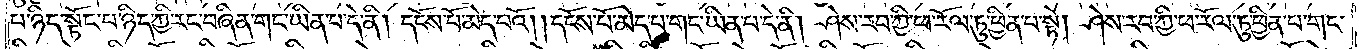པ་ཉིད་སྟོང་པ་ཉིད་ཀྱི་རང་བཞིན་གང་ཡིན་པ་དེ་ནི། དངོས་པོ་མེད་པའོ། དངོས་པོ་མེད་པ་གང་ཡིན་པ་དེ་ནི། ཤེས་རབ་ཀྱི་ཕ་རོལ་ཏུ་ཕྱིན་པ་སྟེ། ཤེས་རབ་ཀྱི་ཕ་རོལ་ཏུ་ཕྱིན་པ་གང་
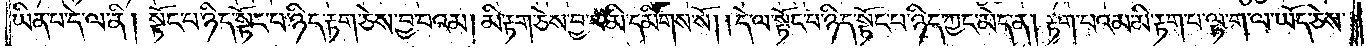ཡིན་པ་དེ་ལ་ནི། སྟོང་པ་ཉིད་སྟོང་པ་ཉིད་རྟག་ཅེས་བྱ་བའམ། མི་རྟག་ཅེས་བྱ་བ་མི་དམིགས་སོ། །དེ་ལ་སྟོང་པ་ཉིད་སྟོང་པ་ཉིད་ཀྱང་མེད་ན། རྟག་པའམ་མི་རྟག་པ་ལྟ་ག་ལ་ཡོད་ཅེས་
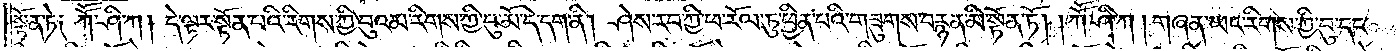སྟོན་ཏེ༑ ཀཽ་ཤི་ཀ། དེ་ལྟར་སྟོན་པའི་རིགས་ཀྱི་བུའམ་རིགས་ཀྱི་བུ་མོ་དེ་དག་ནི། ཤེས་རབ་ཀྱི་ཕ་རོལ་ཏུ་ཕྱིན་པའི་གཟུགས་བརྙན་མི་སྟོན་ཏོ། །ཀཽ་ཤི་ཀ། གཞན་ཡང་རིགས་ཀྱི་བུ་དང་
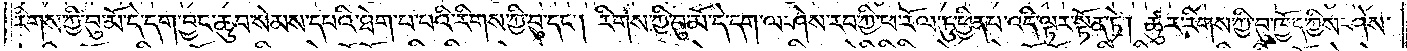རིགས་ཀྱི་བུ་མོ་དེ་དག་བྱང་ཆུབ་སེམས་དཔའི་ཐེག་པ་པའི་རིགས་ཀྱི་བུ་དང༌། རིགས་ཀྱི་བུ་མོ་དེ་དག་ལ་ཤེས་རབ་ཀྱི་ཕ་རོལ་ཏུ་ཕྱིན་པ་འདི་ལྟར་སྟོན་ཏེ། ཚུར་རིགས་ཀྱི་བུ་ཁྱོད་ཀྱིས་ཤེས་
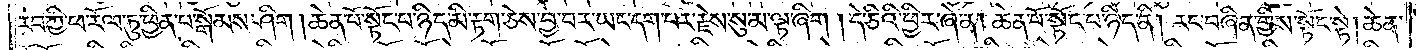རབ་ཀྱི་ཕ་རོལ་ཏུ་ཕྱིན་པ་སྒོམས་ཤིག །ཆེན་པོ་སྟོང་པ་ཉིད་མི་རྟག་ཅེས་བྱ་བར་ཡང་དག་པར་རྗེས་སུ་མ་ལྟ་ཞིག །དེ་ཅིའི་ཕྱིར་ཞེ་ན། ཆེན་པོ་སྟོང་པ་ཉིད་ནི། རང་བཞིན་གྱིས་སྟོང་སྟེ། ཆེན་
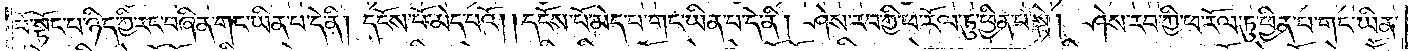པོ་སྟོང་པ་ཉིད་ཀྱི་རང་བཞིན་གང་ཡིན་པ་དེ་ནི། དངོས་པོ་མེད་པའོ། །དངོས་པོ་མེད་པ་གང་ཡིན་པ་དེ་ནི། ཤེས་རབ་ཀྱི་ཕ་རོལ་ཏུ་ཕྱིན་པ་སྟེ། ཤེས་རབ་ཀྱི་ཕ་རོལ་ཏུ་ཕྱིན་པ་གང་ཡིན་
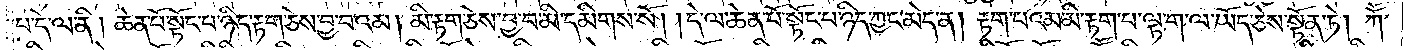པ་དེ་ལ་ནི། ཆེན་པོ་སྟོང་པ་ཉིད་རྟག་ཅེས་བྱ་བའམ། མི་རྟག་ཅེས་བྱ་བ་མི་དམིགས་སོ། །དེ་ལ་ཆེན་པོ་སྟོང་པ་ཉིད་ཀྱང་མེད་ན། རྟག་བའམ་མི་རྟག་པ་ལྟ་ག་ལ་ཡོད་ཅེས་སྟོན་ཏེ། ཀཽ་
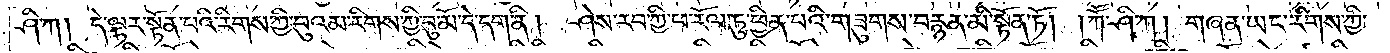ཤི་ཀ། དེ་ལྟར་སྟོན་པའི་རིགས་ཀྱི་བུའམ་རིགས་ཀྱི་བུ་མོ་དེ་དག་ནི། ཤེས་རབ་ཀྱི་ཕ་རོལ་ཏུ་ཕྱིན་པའི་གཟུགས་བརྙན་མི་སྟོན་ཏོ། །ཀཽ་ཤི་ཀ། གཞན་ཡང་རིགས་ཀྱི་
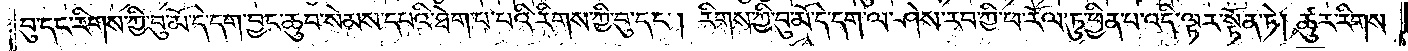བུ་དང་རིགས་ཀྱི་བུ་མོ་དེ་དག་བྱང་ཆུབ་སེམས་དཔའི་ཐེག་པ་པའི་རིགས་ཀྱི་བུ་དང༌། རིགས་ཀྱི་བུ་མོ་དེ་དག་ལ་ཤེས་རབ་ཀྱི་ཕ་རོལ་ཏུ་ཕྱིན་པ་འདི་ལྟར་སྟོན་ཏེ། ཚུར་རིགས་
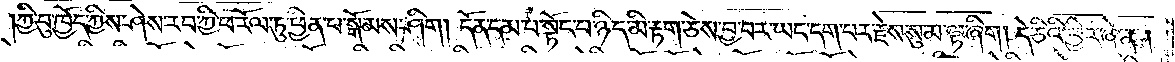ཀྱི་བུ་ཁྱོད་ཀྱིས་ཤེས་རབ་ཀྱི་ཕ་རོལ་ཏུ་ཕྱིན་པ་སྒོམས་ཤིག །དོན་དམ་པ་སྟོང་པ་ཉིད་མི་རྟག་ཅེས་བྱ་བར་ཡང་དག་པར་རྗེས་སུ་མ་ལྟ་ཞིག །དེ་ཅིའི་ཕྱིར་ཞེ་ན།
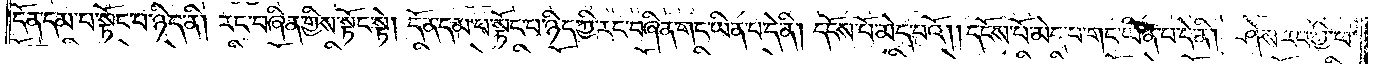དོན་དམ་པ་སྟོང་པ་ཉིད་ནི། རང་བཞིན་གྱིས་སྟོང་སྟེ། དོན་དམ་པ་སྟོང་པ་ཉིད་ཀྱི་རང་བཞིན་གང་ཡིན་པ་དེ་ནི། དངོས་པོ་མེད་པའོ། །དངོས་པོ་མེད་པ་གང་ཡིན་པ་དེ་ནི། ཤེས་རབ་ཀྱི་ཕ་
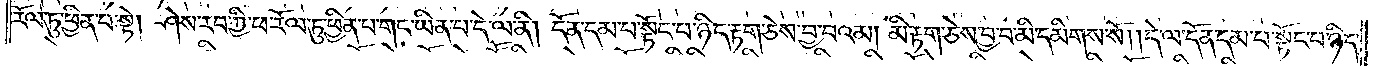རོལ་ཏུ་ཕྱིན་པ་སྟེ། ཤེས་རབ་ཀྱི་ཕ་རོལ་ཏུ་ཕྱིན་པ་གང་ཡིན་པ་དེ་ལ་ནི། དོན་དམ་པ་སྟོང་པ་ཉིད་རྟག་ཅེས་བྱ་བའམ། མི་རྟག་ཅེས་བྱ་བ་མི་དམིགས་སོ། །དེ་ལ་དོན་དམ་པ་སྟོང་པ་ཉིད་
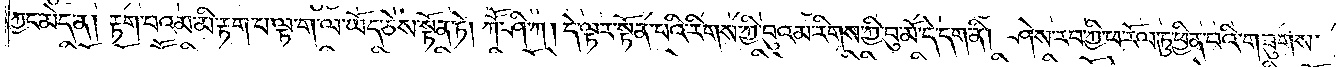ཀྱང་མེད་ན། རྟག་པའམ་མི་རྟག་པ་ལྟ་ག་ལ་ཡོད་ཅེས་སྟོན་ཏེ། ཀཽ་ཤི་ཀ། དེ་ལྟར་སྟོན་པའི་རིགས་ཀྱི་བུའམ་རིགས་ཀྱི་བུ་མོ་དེ་དག་ནི། ཤེས་རབ་ཀྱི་ཕ་རོལ་ཏུ་ཕྱིན་པའི་གཟུགས་
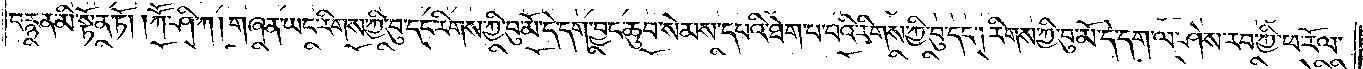བརྙན་མི་སྟོན་ཏོ། །ཀཽ་ཤི་ཀ། གཞན་ཡང་རིགས་ཀྱི་བུ་དང་རིགས་ཀྱི་བུ་མོ་དེ་དག་བྱང་ཆུབ་སེམས་དཔའི་ཐེག་པ་པའི་རིགས་ཀྱི་བུ་དང༌། རིགས་ཀྱི་བུ་མོ་དེ་དག་ལ་ཤེས་རབ་ཀྱི་ཕ་རོལ་
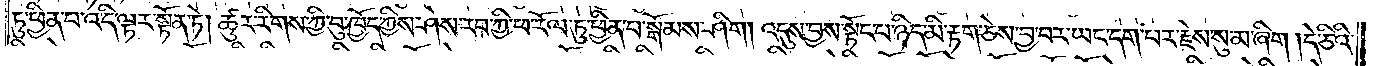ཏུ་ཕྱིན་པ་འདི་ལྟར་སྟོན་ཏེ། ཚུར་རིགས་ཀྱི་བུ་ཁྱོད་ཀྱིས་ཤེས་རབ་ཀྱི་ཕ་རོལ་ཏུ་ཕྱིན་པ་སྒོམས་ཤིག །འདུས་བྱས་སྟོང་པ་ཉིད་མི་རྟག་ཅེས་བྱ་བར་ཡང་དག་པར་རྗེས་སུ་མ་ཞིག །དེ་ཅིའི་
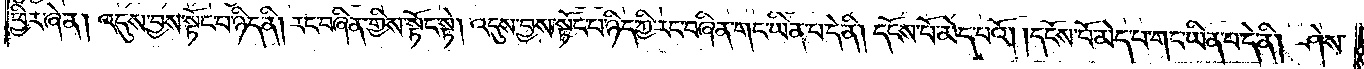ཕྱིར་ཞེ་ན། འདུས་བྱས་སྟོང་པ་ཉིད་ནི། རང་བཞིན་གྱིས་སྟོང་སྟེ། འདུས་བྱས་སྟོང་པ་ཉིད་ཀྱི་རང་བཞིན་གང་ཡིན་པ་དེ་ནི། དངོས་པོ་མེད་པའོ། །དངོས་པོ་མེད་པ་གང་ཡིན་པ་དེ་ནི། ཤེས་
